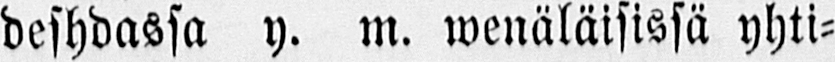deshdassa y. m. wenäläisissä yhti-
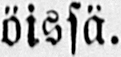öissä.
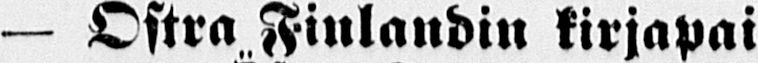— Östra Finlandin kirjapai-
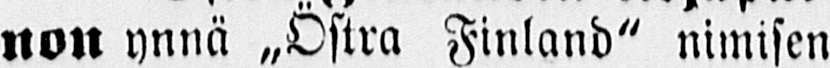non ynnä „Östra Finland" nimisen
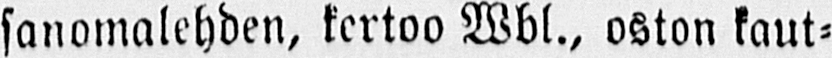sanomalehden, kertoo Wbl., oston kaut-
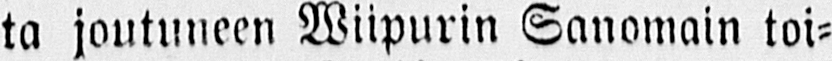ta joutuneen Wiipurin Sanomain toi-
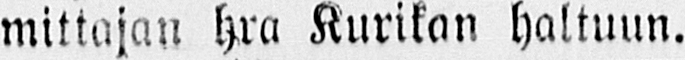mittajan hra Kurikan haltuun.
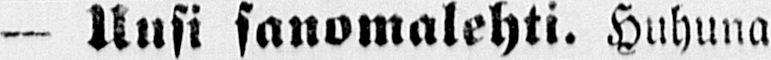— Uusi sanomalehti. Huhuna
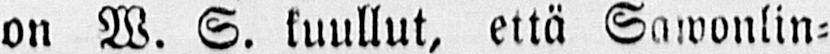on W. S. kuullut, että Sawonlin-
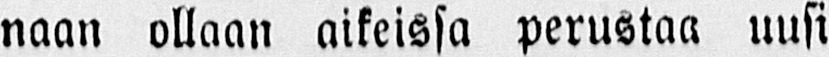naan ollaan aikeissa perustaa uusi
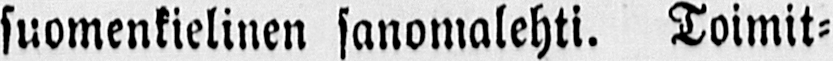suomenkielinen sanomalehti. Toimit-
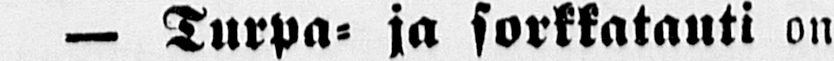— Turpa- ja sorkkatauti on
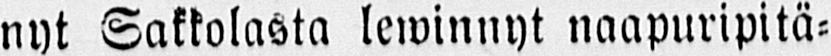nyt Sakkolasta lewinnyt naapuripitä-
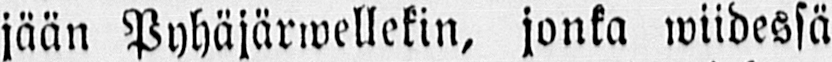jään Pyhäjärwellekin, jonka wiidessä
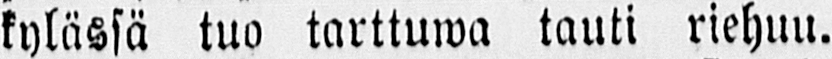kylässä tuo tarttuwa tauti riehuu.
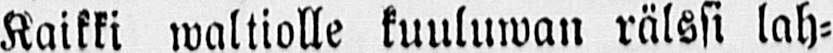Kaikki waltiolle kuuluwan rälssi lah-
